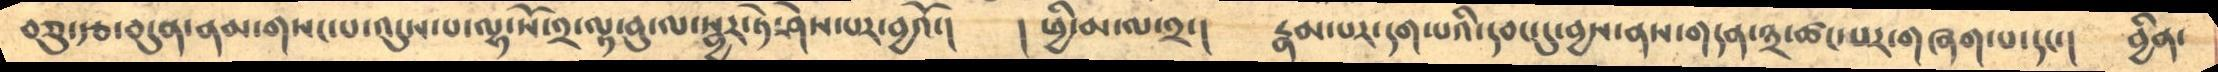བཅུ་རྩ་བདུན་ནམ་གསང་པ་འདུས་པ་ལྷ་སོ་༢་ལྟ་བུ་ལ་སྦྱར་ཏེ་ཤེས་པར་བྱའོ་།     །ཕྱི་མ་ལ་༢་།    རྣམ་པར་དག་པའི་དབང་དུ་བྱས་ནས་གདན་༣་ཚང་པར་གཞག་པ་དང་།    བྱིན་
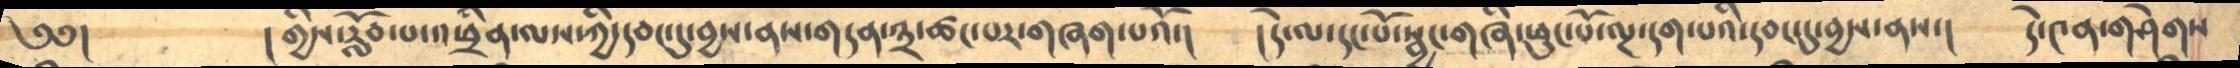༄༅།        ། གྱིས་རློབ་པ་འཕྲིན་ལས་ཀྱི་དབང་དུ་བྱས་ནས་གདན་༣་ཚང་པར་གཞག་པའོ་།     །དེ་ལ་དང་པོ་སྦྱང་གཞི་ཕུང་པོ་ལྔ་དག་པའི་དབང་དུ་བྱས་ནས་།    དེ་༤ན་གཤེགས
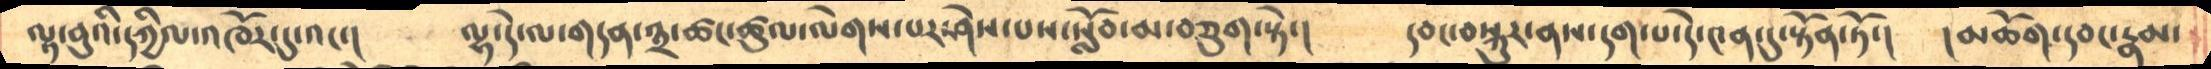ལྟ་བུའི་དཀྱིལ་འཁོར་དུ་འང་།      ལྷ་དེ་ལ་གདན་༣་ཚང་ཚུལ་ལེགས་པར་ཤེས་པས་སློབ་མ་བཅུག་སྟེ་།    དབང་བསྐུར་ནས་དག་པ་དེ་༤ན་དུ་སྟོན་ཏོ་།    །མཆོག་དབང་རྣམ་
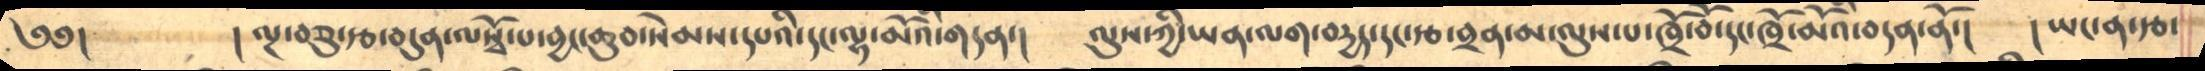༄༅།       །ལྔ་བཅུ་རྩ་བདུན་ལསྭོ་པ་བྱང་ཆུབ་སེམས་དཔའི་དང་ལྷ་མོའི་གདན་།     ལུས་ཀྱི་ཡན་ལག་བདྱད་དང་རྩ་བྲན་མ་ལུས་པ་ཁྲོ་བོ་དང་ཁྲོ་མོའི་བདན་ནོ་།     །ཡང་ན་རྩ་
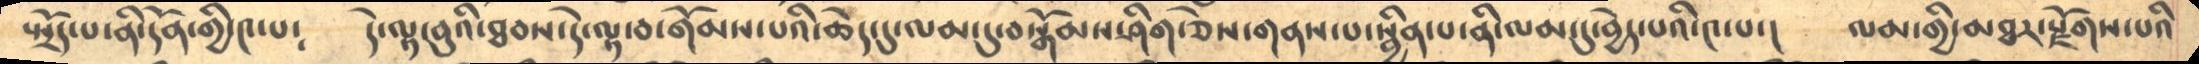སྤྲོད་པ་ནི་དོན་གྱི་༤་པ༴    དེ་ལྟ་བུའི་ཐབས་དེ་ལྟ་བ་གོམས་པའི་ཆེད་དུ་ལམ་དུ་བསྒོམས་ཤིག་ཅེས་གནས་པ་སྦྱིན་པ་ནི་ལམ་དུ་བྱེད་པའི་༤་པ་།    ལམ་གྱི་མཐར་རྫོགས་པའི
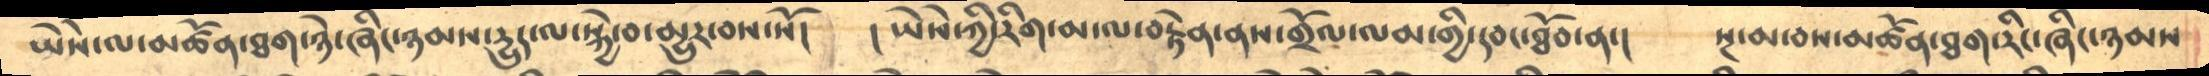ཡེེས་ལ་མཚོན་ཐག་ཉེ་ཞིང་ཉམས་དྱུད་ལ་སྐྱེ་བར་མྱུར་བས་སོ། །ཡེསེ་ཀྱི་རིག་མ་ལ་བརྟེན་ནས་གྲོལ་ལམ་གྱི་དབང་ཐོབ་ན་།   སྔ་མ་བས་མཚོན་ཐག་རིང་ཞིང་ཉམས
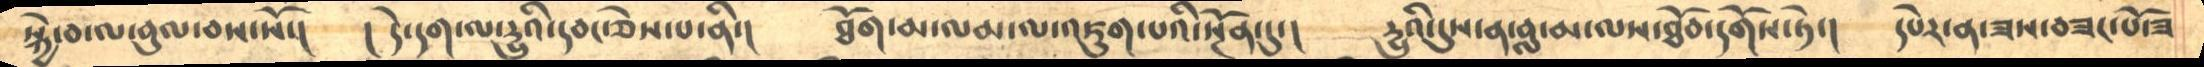སྐྱེ་བ་ལ་བུལ་བས་སོ་། །དེ་དག་ལ་དྱུའི་དབང་ཅེས་པ་ནི་། ཐོག་མ་ལམ་ལ་འཇུག་པའི་སྔོན་དུ་།  དྱུའི་དུས་ན་བླ་མ་ལས་ཐོབ་དགོས་ཏེ་། དཔེར་ན་ཟས་བཟང་པོ་ཟ
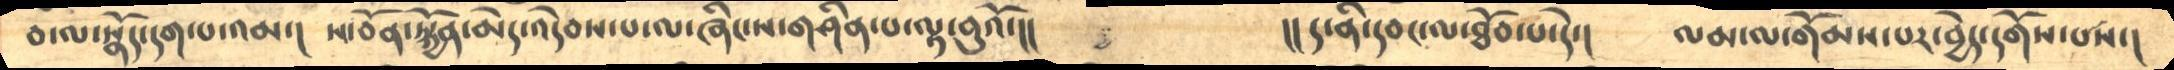བ་ལ་སྣོད་དག་པ་འམ་། ས་བོན་སྐྱོན་མེད་འདེབས་པ་ལ་ཞིང་ས་གཤིན་པ་ལྟ་བུའོ་།།       །།ད་ནི་དབང་ལ་ཐོབ་པ་དེ་། ལམ་ལ་གོམས་པར་བྱེད་དགོས་པས་།
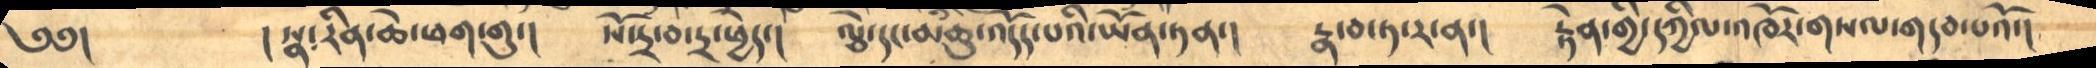༄༅།     །སྣ་རིན་ཆེ་ཕག་གུ་།     སོ་དྲ་བ་དྲ་ཕྱེད་།      ལྕེ་དང་མཆུ་འདོད་པའི་ཡོན་ཏན་།     རྣ་བ་ཏ་ར་ན་།   རྟེན་གྱི་དཀྱིལ་འཁོར་གསལ་གདབ་པའོ་།
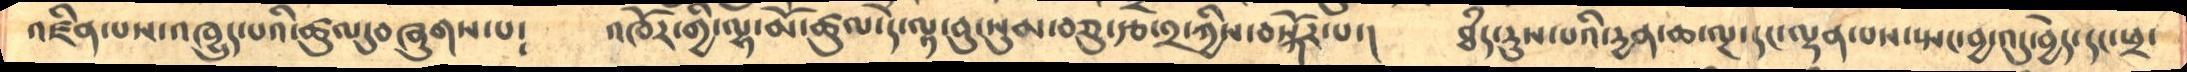འཛིན་པས་འཁྱུད་པའི་ཚུལ་དུ་བཞུགས་པ༴     འཁོར་གྱི་ལྷ་མོ་ཚུལ་དེ་ལྟ་བུ་སུམ་བཅུ་རྩ་༢་ཀྱིས་བསྐོར་པ་།     ཐཾད་རུས་པའི་དྱན་ཆ་ལྔ་དང་ལྡན་པས་སྤང་བྱ་འདུ་བྱེད་དང་ཕྲ་
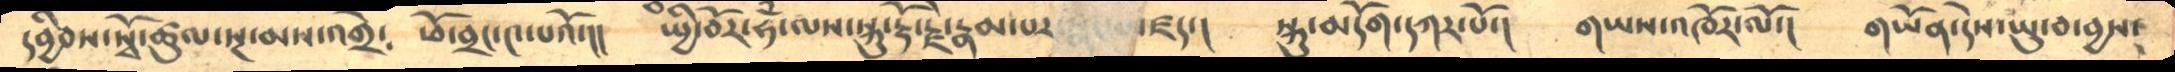དབྱིབས་སྭོ་ཚུལ་སྔ་མས་འགྲེ༴       ཕོ་བྲང་༤་པའོ་།།      སྤྱི་བོར་ཧོཾ་ལས་སྐུ་རྡོ་རྗེ་རྣམ་པར་སྣང་མཛད་།      སྐུ་མདོག་དཀར་པོ་།    གཡས་འཁོར་ལོ་།    གཡོན་དེས་ཡུ་བ་བྱས་
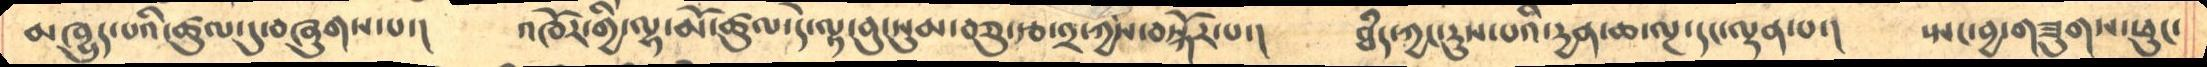མཁྱུད་པའི་ཚུལ་དུ་བཞུགས་པ་།      འཁོར་གྱི་ལྷ་མོ་ཚུལ་དེ་ལྟ་བུ་སུམ་བཅུ་རྩ་༢་ཀྱིས་བསྐོར་པ་།     ཐཾད་ཀྱང་རུས་པའི་དྱན་ཆ་ལྔ་དང་ལྡན་པ་།    སྤང་བྱ་གཟུགས་ཕུང་
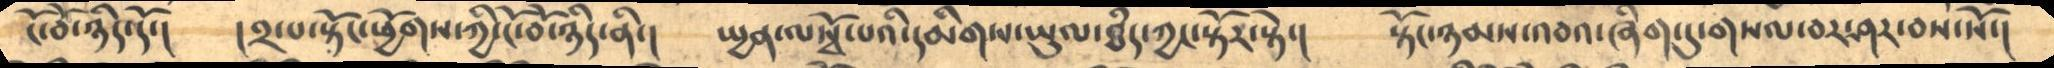ངོ་བོ་ཉིད་དོ་།         །༢་པ་སྟོང་ཕྱོགས་ཀྱི་ངོ་བོ་ཉད་ནི་།      སྤྱན་ལསྭོ་པའི་དམིགས་ཡུལ་ཐཾད་ཀྱང་སྟོར་སྟེ་།       སྟོང་ཉམས་འབའཞིག་དུ་གསལ་བར་ཤར་བས་སོ་།
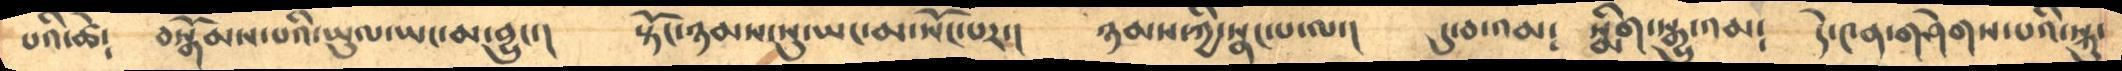པའི་ཚེ༴      བསྒོམས་པའི་ཡུལ་ཡང་མ་བྱུང་།      སྟོང་ཉམས་སུ་ཡང་མ་སོང་པར་།     ཉམས་ཀྱི་སྣང་པ་ལ་།     དུ་བ་འམ༴    སྨིག་སྒྱུ་འམ༴      དེ་༤ན་གཤེགས་པའི་སྐུ་
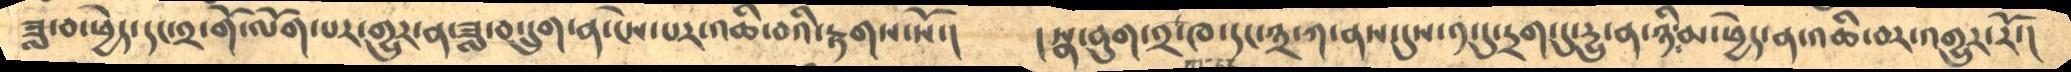ཟླ་བ་ཕྱེད་དང་༢་གོ་ལོག་པར་གྱུར་ན་ཟླ་བ་དྲུག་ན་ངེས་པར་འཆི་བའི་རྟགས་སོ་།      །སྣ་བུག་༢་ཁ་དང་༣་ཀ་ནས་དུས་༡་དུ་དྲག་དུ་དྱུ་ན་ཉི་མ་ཕྱེད་ན་འཆི་བར་འགྱུར་རོ་།
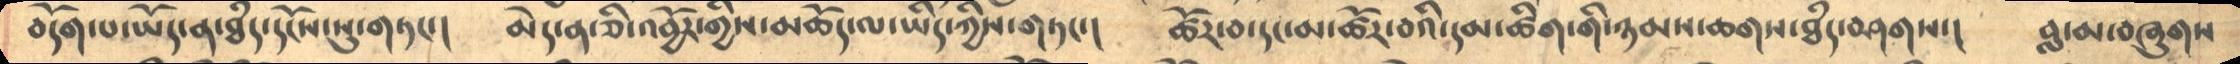བདོག་པ་ཡོད་ན་ཐཾད་དངོས་སུ་གཏང་།     མེད་ན་ཅི་འབྱོར་གྱིས་མཆོད་ལ་ཡིད་ཀྱིས་གཏང་།    ཚོར་བ་དང་མ་ཚོར་བའི་དམ་ཚིག་གི་ཉམས་ཆགས་ཐཾད་བཤགས་།    བླ་མ་བཞུགས
